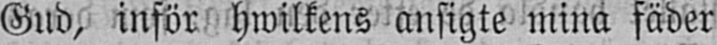Gud, inför hwilkens ansigte mina fäder
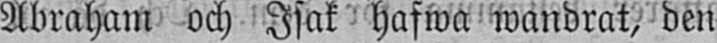Abraham och Isak hafwa wandrat, den
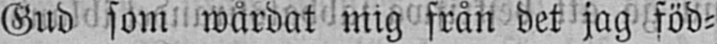Gud som wårdat mig från det jag föd-
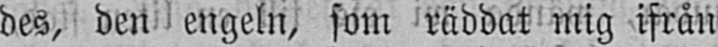des, den engeln, som räddat mig ifrån
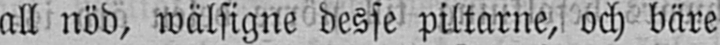all nöd, wälsigne desse piltarne, och bäre
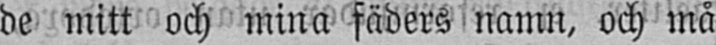de mitt och mina fäders namn, och må
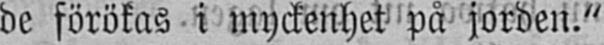de förökas i myckenhet på jorden."
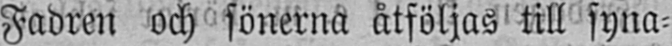Fadren och sönerna åtföljas till syna-
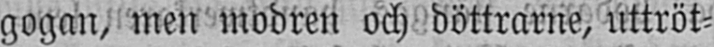gogan, men modren och döttrarne, uttröt-
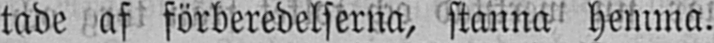tade af förberedelserna, stanna hemma.
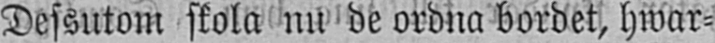Dessutom skola nu de ordna bordet, hwar-
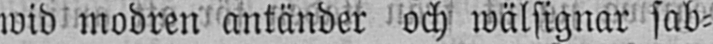wid modren antänder och wälsignar sab-
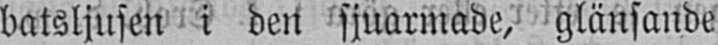batsljusen i den sjuarmade, glänsande
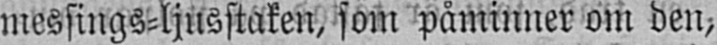messings-ljusstaken, som påminner om den,
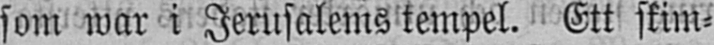som war i Jerusalems tempel. Ett skim-
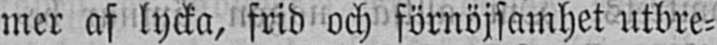mer af lycka, frid och förnöjsamhet utbre-
